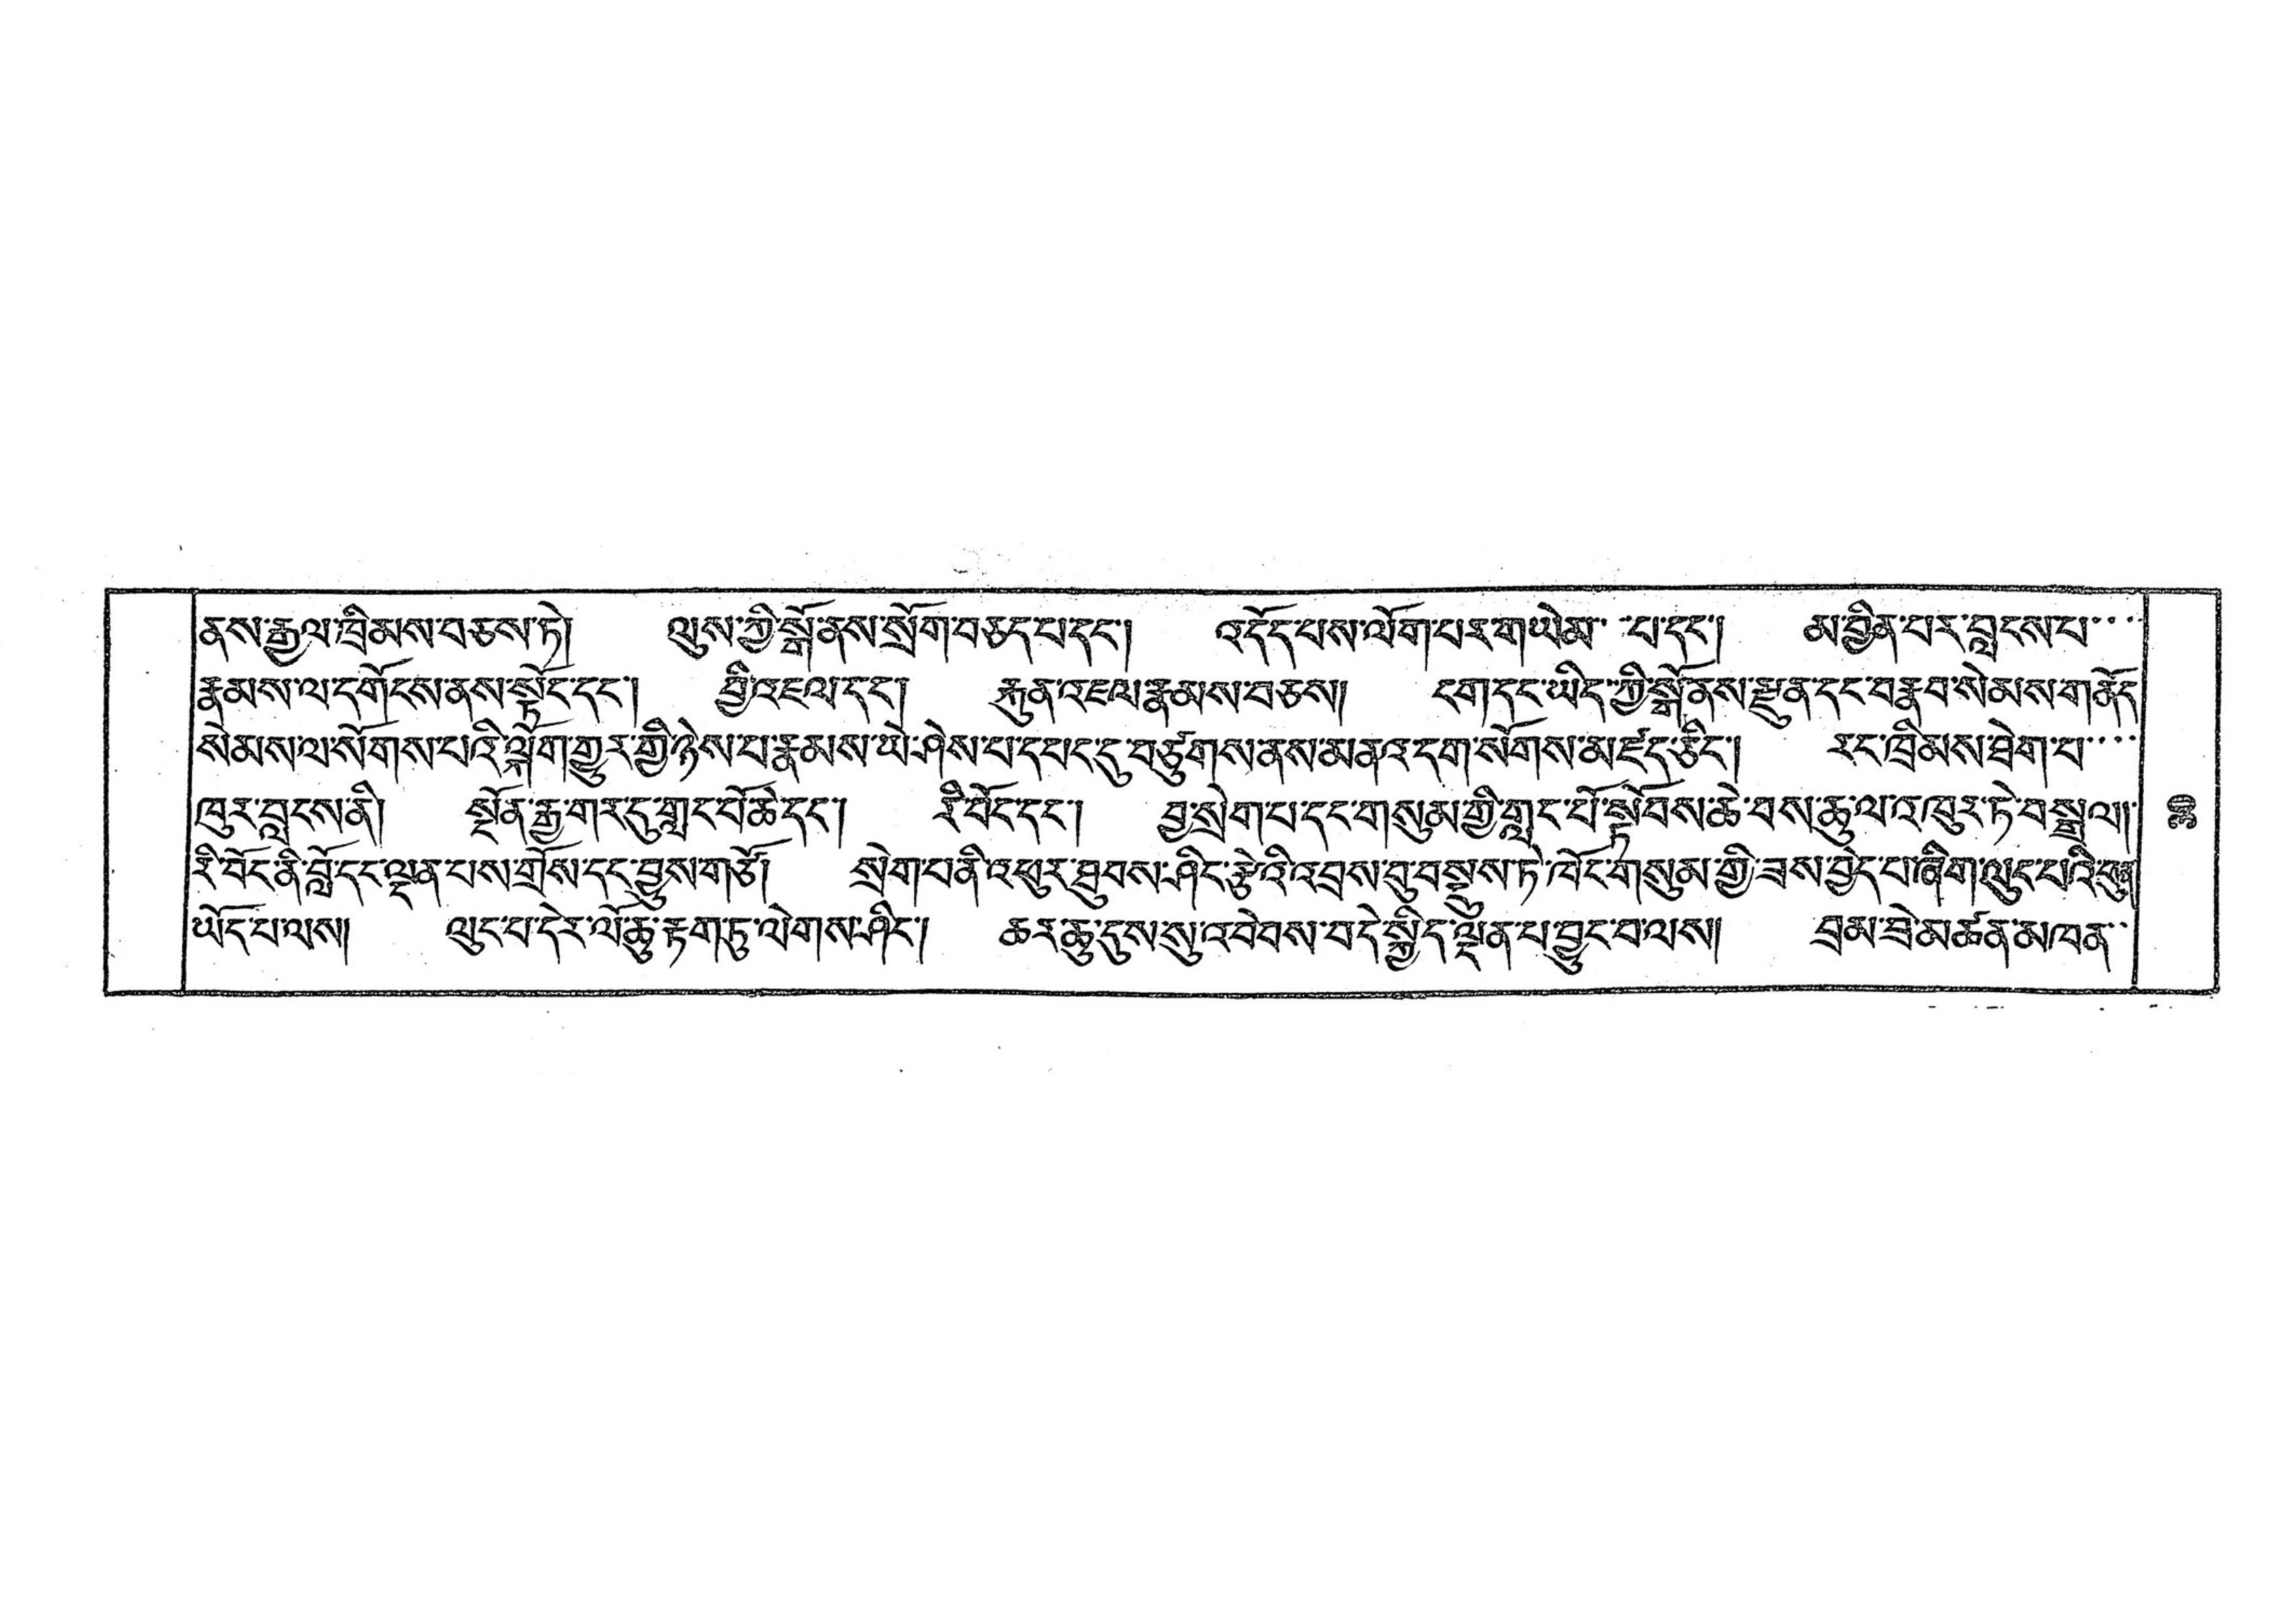ནས་རྒྱལ་ཁྲིམས་བཅས་ཏེ། ལུས་ཀྱི་སྒོ་ནས་སྲོག་བཅད་པ་དང་། འདོད་པས་ལོག་པར་གཡེམ་ ་པ་དང་། མ་བྱིན་པར་བླངས་པ་་་་
རྣམས་ལ་དགོངས་ནས་སྟོང་དང་། བྱི་འཇལ་དང་། རྐུན་འཇལ་རྣམས་བཅས། ངག་དང་ཡིད་ཀྱི་སྒོ་ནས་རྫུན་དང་བརྣབ་སེམས་གནོད་
སེམས་ལ་སོགས་པའི་ལྐོག་གྱུར་གྱི་ཉེས་པ་རྣམས་ཡེ་ཤེས་པ་དཔང་དུ་བཙུགས་ནས་མནའ་དག་སོགས་མཛད་ཅིང་། རང་ཁྲིམས་ཐེག་པ་་་་
ཁུར་བླངས་ནི། སྔོན་རྒྱ་གར་དུ་གླང་པོ་ཆེ་དང་། རི་བོང་དང་། བྱ་སྲེག་པ་དང་གསུམ་གྱི་གླང་པོ་སྟོབས་ཆེ་བས་ཆུ་ལ་འཁུར་ཏེ་བསྒྲལ།
རི་བོང་ནི་བློ་དང་ལྡན་པས་གྲོས་དང་བྱུས་གཙོ། སྲེག་པ་ནི་འཕུར་ཐུབས་ཤིང་རྩེའི་འབྲས་བུ་བསྡུས་ཏེ་ཁོང་གསུམ་གྱི་ཟས་བྱེད་པ་ཞིག་ལུང་པའི་ཕུན་
ཡོད་པ་ལས། ལུང་པ་དེར་ལོ་ཆུ་རྟག་ཏུ་ལེགས་ཤིང་། ཆར་ཆུ་དུས་སུ་འབེབས་བདེ་སྐྱིད་ལྡན་པ་བྱུང་བ་ལས། བྲམ་ཟེ་མཚན་མཁན་་
